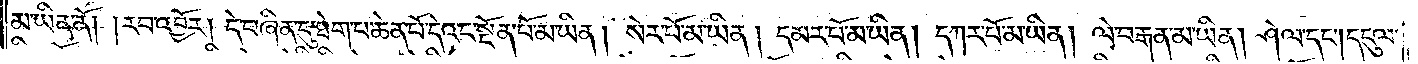མ་ཡིན་ནོ། །རབ་འབྱོར། དེ་བཞིན་དུ་ཐེག་པ་ཆེན་པོ་དེའང་སྔོན་པོ་མ་ཡིན། སེར་པོ་མ་ཡིན། དམར་པོ་མ་ཡིན། དཀར་པོ་མ་ཡིན། ལེ་བརྒན་མ་ཡིན། ཤེལ་དང༌། དངུལ་
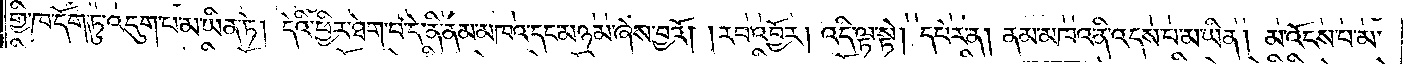གྱི་ཁ་དོག་ཏུ་འདུག་པ་མ་ཡིན་ཏེ། དེའི་ཕྱིར་ཐེག་པ་དེ་ནི་ནམ་མཁའ་དང་མཉམ་ཞེས་བྱའོ། །རབ་འབྱོར། འདི་ལྟ་སྟེ། དཔེར་ན། ནམ་མཁའ་ནི་འདས་པ་མ་ཡིན། མ་འོངས་པ་མ་
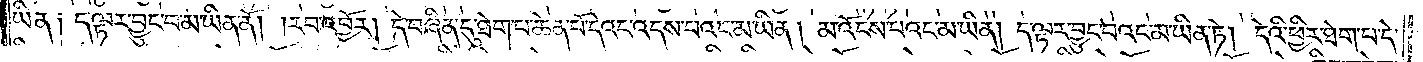ཡིན། ད་ལྟར་བྱུང་བ་མ་ཡིན་ནོ། །རབ་འབྱོར། དེ་བཞིན་དུ་ཐེག་པ་ཆེན་པོ་དེའང་འདས་པའང་མ་ཡིན། མ་འོངས་པའང་མ་ཡིན། དེ་ལྟར་བྱུང་བའང་མ་ཡིན་ཏེ། དེའི་ཕྱིར་ཐེག་པ་དེ་
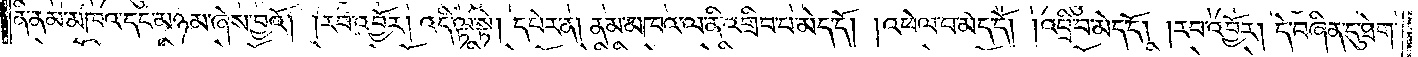ནི་ནམ་མཁའ་དང་མཉམ་ཞེས་བྱའོ། །རབ་འབྱོར། འདི་ལྟ་སྟེ། དཔེར་ན། ནམ་མཁའ་ལ་ནི་འགྲིབ་པ་མེད་དོ། །འཕེལ་བ་མེད་དོ། །འབྲི་བ་མེད་དོ། །རབ་འབྱོར། དེ་བཞིན་དུ་ཐེག་
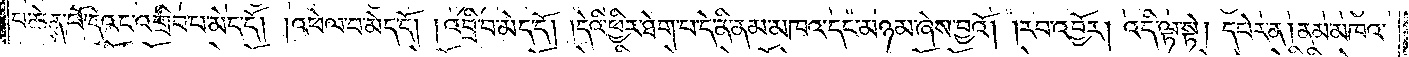པ་ཆེན་པོ་དེའང་འགྲིབ་པ་མེད་དོ། །འཕེལ་བ་མེད་དོ། །འབྲི་བ་མེད་དོ། །དེའི་ཕྱིར་ཐེག་པ་དེ་ནི་ནམ་མཁའ་དང་མཉམ་ཞེས་བྱའོ། །རབ་འབྱོར། འདི་ལྟ་སྟེ། དཔེར་ན། ནམ་མཁའ་
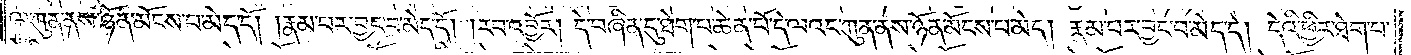ལ་ཀུན་ནས་ཉོན་མོངས་པ་མེད་དོ། །རྣམ་པར་བྱང་བ་མེད་དོ། །རབ་འབྱོར། དེ་བཞིན་དུ་ཐེག་པ་ཆེན་པོ་དེ་ལའང་ཀུན་ནས་ཉོན་མོངས་པ་མེད། རྣམ་པར་བྱང་བ་མེད་དོ། །དེའི་ཕྱིར་ཐེག་པ་
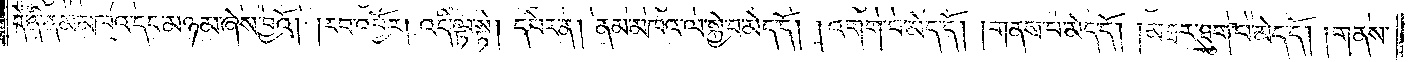དེ་ནི་ནམ་མཁའ་དང་མཉམ་ཞེས་བྱའོ། །རབ་འབྱོར། འདི་ལྟ་སྟེ། དཔེར་ན། ནམ་མཁའ་ལ་སྐྱེ་བ་མེད་དོ། །འགག་པ་མེད་དོ། །གནས་པ་མེད་དོ། །མཐར་ཐུག་པ་མེད་དོ། །གནས་
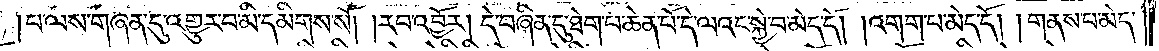པ་ལས་གཞན་དུ་འགྱུར་བ་མི་དམིགས་སོ། །རབ་འབྱོར། དེ་བཞིན་དུ་ཐེག་པ་ཆེན་པོ་དེ་ལའང་སྐྱེ་བ་མེད་དོ། །འགག་པ་མེད་དོ། །གནས་པ་མེད་
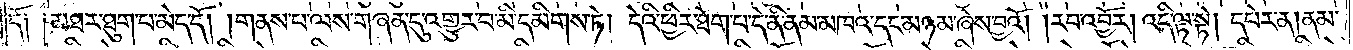དོ། །མཐར་ཐུག་པ་མེད་དོ། །གནས་པ་ལས་གཞན་དུ་འགྱུར་བ་མི་དམིགས་ཏེ། དེའི་ཕྱིར་ཐེག་པ་དེ་ནི་ནམ་མཁའ་དང་མཉམ་ཞེས་བྱའོ། །རབ་འབྱོར། འདི་ལྟ་སྟེ། དཔེར་ན། ནམ་
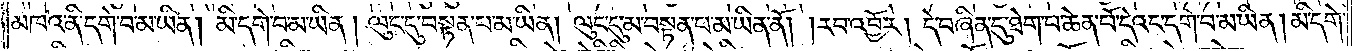མཁའ་ནི་དགེ་བ་མ་ཡིན། མི་དགེ་པ་མ་ཡིན། ལུང་དུ་བསྟན་པ་མ་ཡིན། ལུང་དུ་མ་བསྟན་པ་མ་ཡིན་ནོ། །རབ་འབྱོར། དེ་བཞིན་དུ་ཐེག་པ་ཆེན་པོ་དེའང་དགེ་བ་མ་ཡིན། མི་དགེ་
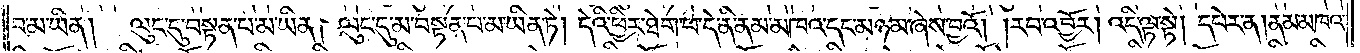བ་མ་ཡིན། ལུང་དུ་བསྟན་པ་མ་ཡིན། ལུང་དུ་མ་བསྟན་པ་མ་ཡིན་ཏེ། དེའི་ཕྱིར་ཐེག་པ་དེ་ནི་ནམ་མཁའ་དང་མཉམ་ཞེས་བྱའོ། །རབ་འབྱོར། འདི་ལྟ་སྟེ། དཔེར་ན། ནམ་མཁའ་
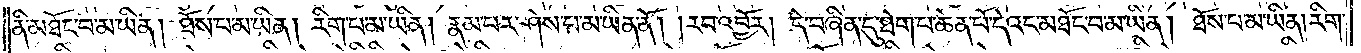ནི་མཐོང་བ་མ་ཡིན། ཐོས་པ་མ་ཡིན། རིག་པ་མ་ཡིན། རྣམ་པར་ཤེས་པ་མ་ཡིན་ནོ། །རབ་འབྱོར། དེ་བཞིན་དུ་ཐེག་པ་ཆེན་པོ་དེའང་མཐོང་བ་མ་ཡིན། ཐོས་པ་མ་ཡིན། རིག་
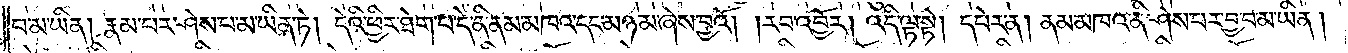པ་མ་ཡིན། རྣམ་པར་ཤེས་པ་མ་ཡིན་ཏེ། དེའི་ཕྱིར་ཐེག་པ་དེ་ནི་ནམ་མཁའ་དང་མཉམ་ཞེས་བྱའོ། །རབ་འབྱོར། འདི་ལྟ་སྟེ། དཔེར་ན། ནམ་མཁའ་ནི་ཤེས་པར་བྱ་བ་མ་ཡིན།
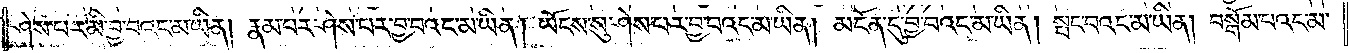ཤེས་པར་མི་བྱ་བའང་མ་ཡིན། རྣམ་པར་ཤེས་པར་བྱ་བའང་མ་ཡིན། ཡོངས་སུ་ཤེས་པར་བྱ་བའང་མ་ཡིན། མངོན་དུ་བྱ་བའང་མ་ཡིན། སྤང་བའང་མ་ཡིན། བསྒོམ་པའང་མ་
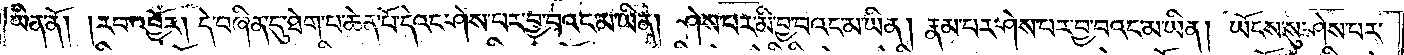ཡིན་ནོ། །རབ་འབྱོར། དེ་བཞིན་དུ་ཐེག་པ་ཆེན་པོ་དེའང་ཤེས་པར་བྱ་བའང་མ་ཡིན། ཤེས་པར་མི་བྱ་བའང་མ་ཡིན། རྣམ་པར་ཤེས་པར་བྱ་བའང་མ་ཡིན། ཡོངས་སུ་ཤེས་པར་
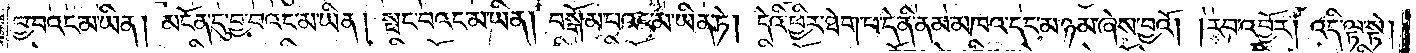བྱ་བའང་མ་ཡིན། མངོན་དུ་བྱ་བའང་མ་ཡིན། སྤང་བའང་མ་ཡིན། བསྒོམ་པའང་མ་ཡིན་ཏེ། དེའི་ཕྱིར་ཐེག་པ་དེ་ནི་ནམ་མཁའ་དང་མཉམ་ཞེས་བྱའོ། །རབ་འབྱོར། འདི་ལྟ་སྟེ།
